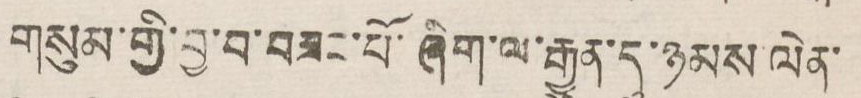གསུམ་གྱི་བྱ་བ་བཟང་པོ་ཞིག་ལ་རྒྱུན་དུ་ཉམས་ལེན་
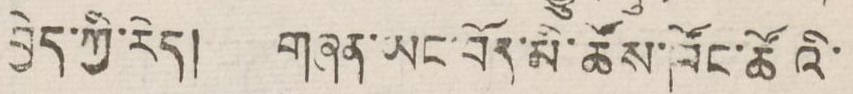བྱེད་ཀྱི་རེད། གཞན་ཡང་བོད་མི་ཚོས་ཁོང་ཚོའི
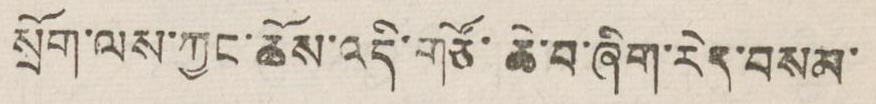སྲོག་ལས་ཀྱང་ཆོས་འདི་གཙོ་ཆེ་བ་ཞིག་རེད་བསམ་
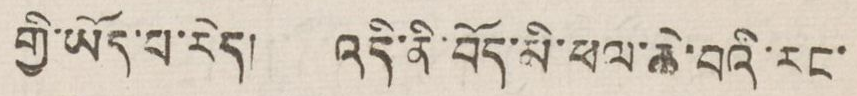གྱི་ཡོད་པ་རེད། འདི་ནི་བོད་མི་ཕལ་ཆེ་བའི་རང་
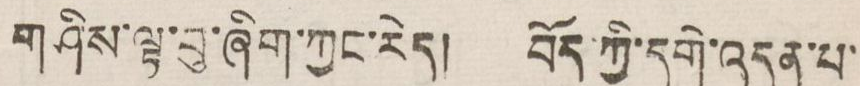གཤིས་ལྟ་བུ་ཞིག་ཀྱང་རེད། བོད་ཀྱི་དགེ་འདུན་པ་
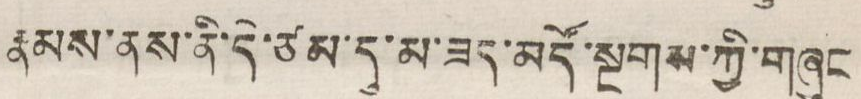རྣམས་ནས་ནི་དེ་ཙམ་དུ་མ་ཟད་མདོ་སྔགས་ཀྱི་གཞུང
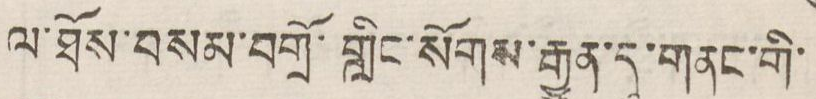ལ་ཐོས་བསམ་བགྲོ་གླིང་སོགས་རྒྱུན་དུ་གནང་གི་
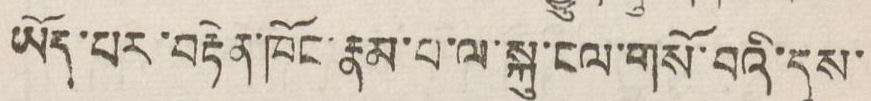ཡོད་པར་བརྟེན་ཁོང་རྣམ་པ་ལ་སྐུ་ངལ་གསོ་བའི་དུས་
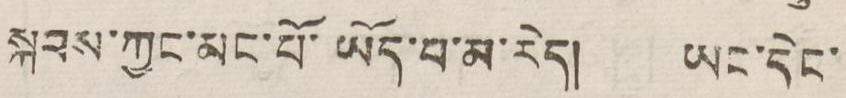སྐབས་ཀྱང་མང་པོ་ཡོད་པ་མ་རེད། ཡང་དེང་
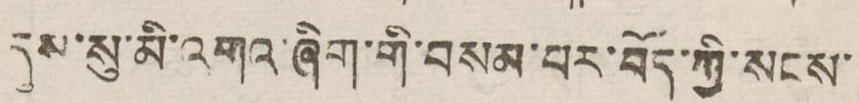དུས་སུ་མི་འགའ་ཞིག་གི་བསམ་པར་བོད་ཀྱི་སངས་
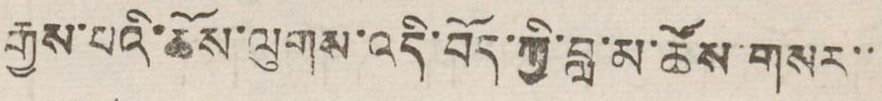རྒྱས་པའི་ཆོས་ལུགས་འདི་བོད་ཀྱི་བླ་མ་ཆོས་གསར་་
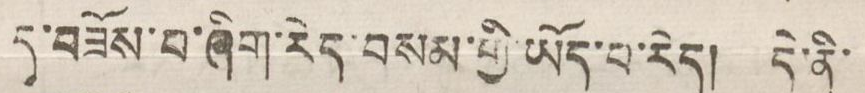དུ་བཟོས་བ་ཞིག་ཏེད་བསམ་གྱི་ཡོད་པ་རེད། དེ་ནི་
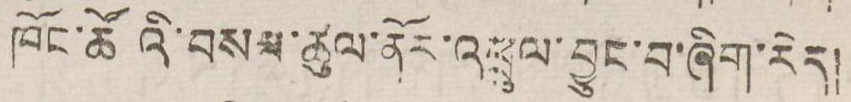ཁོང་ཚོའི་བསམ་ཚུལ་ནོར་འཕྲུལ་བྱུང་བ་ཞིག་རེད།
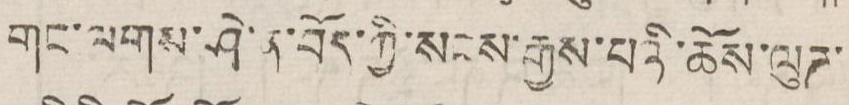གང་ལགས་ཤེ་ན་བོད་ཀྱི་སངས་རྒྱས་པའི་ཆོས་ལུཊ་
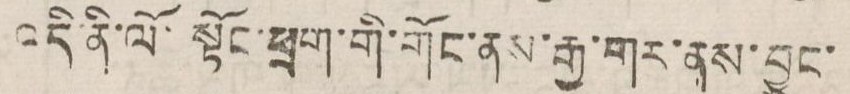འདི་ནི་ལོ་སྟོང་ཕྲག་གི་གོང་ནས་རྒྱ་གར་ནས་བྱུང་
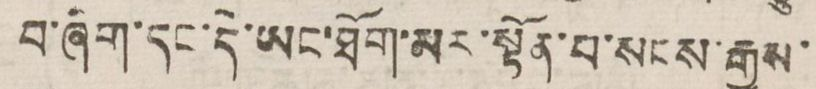བ་ཞིག་དང་དེ་ཡང་ཐོག་མར་སྟོན་པ་སངས་རྒྱས་
